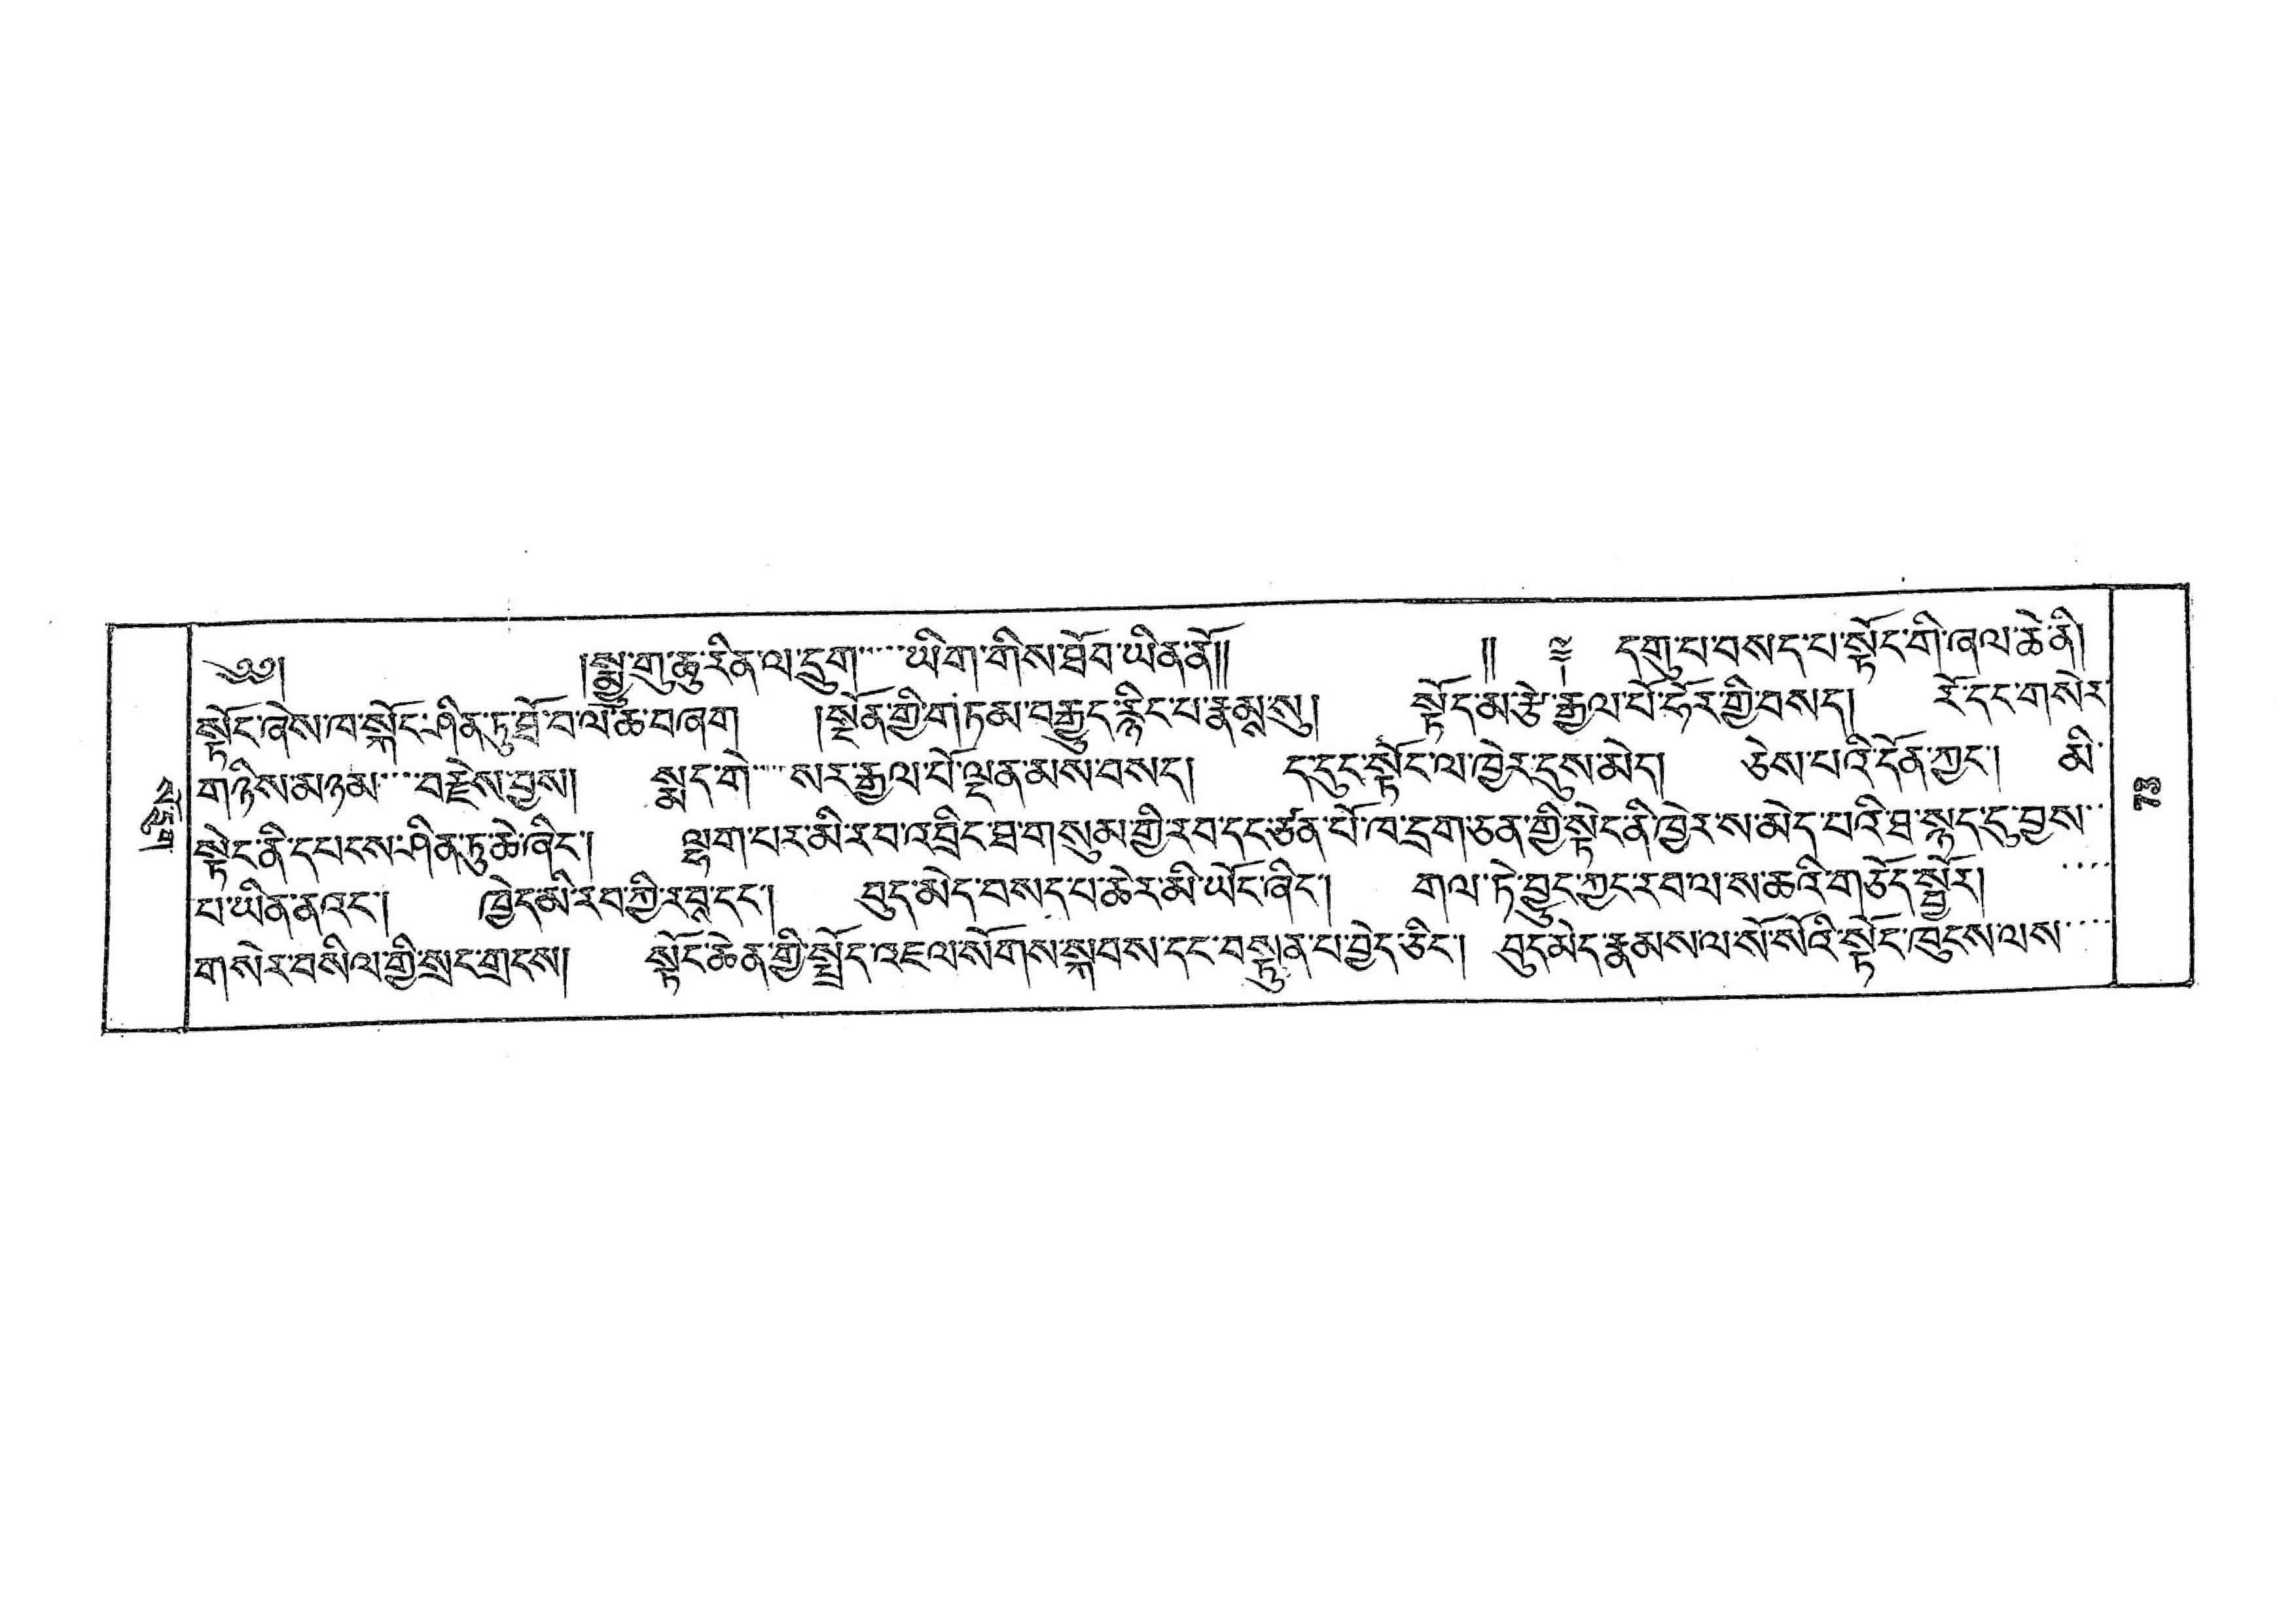སོ་དྲུག་
༄༅།  སྨྱུ་གུ་ཆུ་རིན་ལ་དྲུག་་་་་ཡིག་གིས་ཐོབ་ཡིན་ནོ།།  །། ༈ དགུ་པ་བསད་པ་སྟོང་གི་ཞལ་ཆེ་ནི།
སྟོང་ཞེས་ཁ་སྐོང་ཤིན་ཏུ་ཐོ་བ་ལ་ཆ་བཞག །སྔོན་གྱི་གཏམ་བརྒྱུད་རྙིང་རྣམས་སུ། སྟོད་མ་རྩེ་རྒྱལ་པོ་ཧོར་གྱི་བསད། རོ་དང་གསེར་
གཉིས་མཉམ་་་བརྗེས་བྱས། སྨད་གེ་་་་སར་རྒྱལ་པོ་ལྡན་མས་བསད། ད་དུང་སྟོང་ལ་ཁྱེར་དུས་མེད། ཅེས་པའི་དོན་ཀྱང་། མི་
སྟེང་ནི་དཔངས་ཤིན་ཏུ་ཆེ་ཞིང་། ལྷག་པར་མི་རབ་འབྲིང་ཐ་གསུམ་གྱི་རབ་དང་ཙན་པོ་ཁ་དྲག་ཅན་གྱི་སྟེང་ནི་ཁྱེར་ས་མེད་པའི་ཐ་སྙད་དུ་བྱས་་
པ་ཡིན་ནའང་། ཁྱེད་མི་རབ་ཀྱི་རབས་དང་། བུད་མེད་བསད་པ་ཆེར་མི་ཡོང་ཞིང་། གལ་ཏེ་བྱུད་ཀྱང་རབ་ལ་ས་ཆའི་གཅོད་སྦྱོར། ་་་་
གསེར་བསིལ་གྱི་སྲང་གྲངས། སྟོང་ཆེན་གྱི་སྤྲོད་འཇལ་སོགས་སྐབས་དང་བསྟུན་པ་བྱེད་ཅིང་། བུད་མེད་རྣམས་ལ་སོ་སོའི་སྟོང་ཁུངས་ལས་་་་
